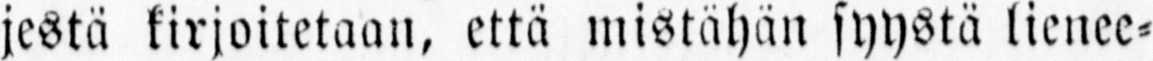jestä kirjoitetaan, että mistähän syystä lienee-
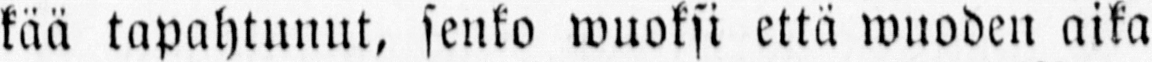kää tapahtunut, senkö wuoksi että wuoden aika
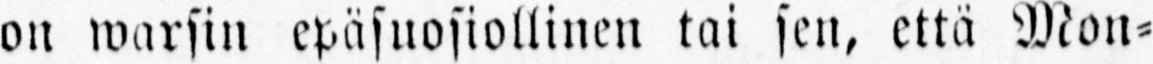on warsin epäsuosiollinen tai sen, että Mon-
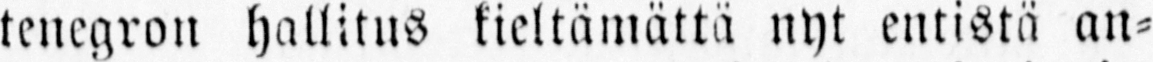tenegron hallitus kieltämättä nyt entistä an-
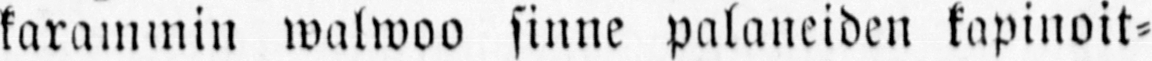karammin walwoo sinne palaneiden kapinoit-
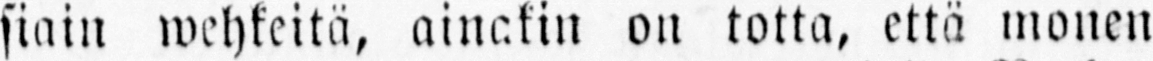siain wehkeitä, ainakin on totta, että monen
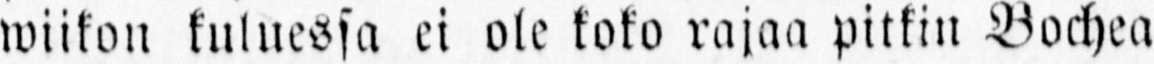wiikon kuluessa ei ole koko rajaa pitkin Bochea
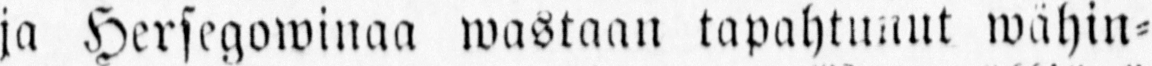ja Hersegowinaa wastaan tapahtunut wähin-
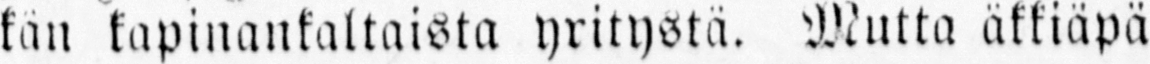kän kapinankaltaista yritystä. Mutta äkkiäpä
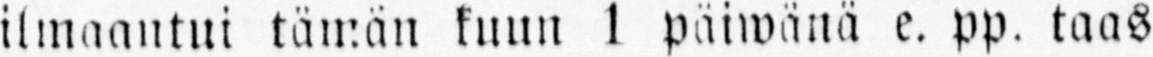ilmaantui tämän kuun 1 päiwanä e. pp. taas
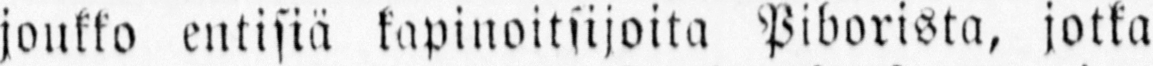joukko entisiä kapinoitsijoita Piborista, jotka
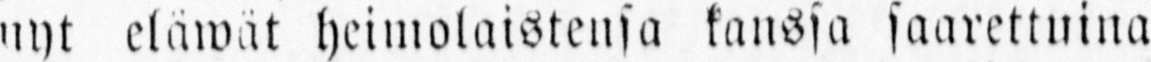nyt eläwät heimolaistensa kanssa saarettuina
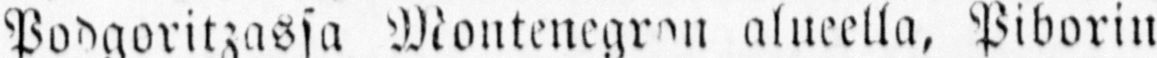Podgoritzassa Montenegron alueella, Piborin
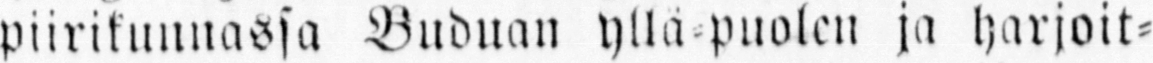piirikunnassa Buduan yllä- -puolen ja harjoit-
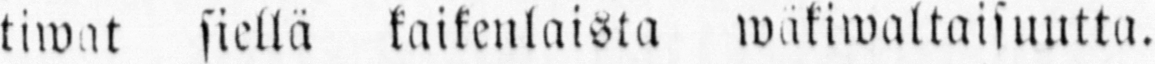tiwat siellä kaikenlaista wakiwaltaisuutta.
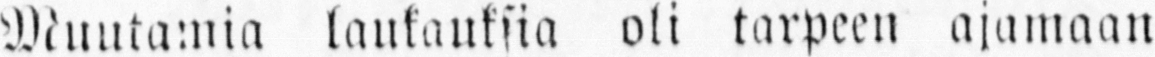Muutamia laukauksia oli tarpeen ajamaan
